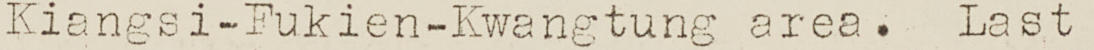Kiangsi-Fukien-Kwangtung area. Last
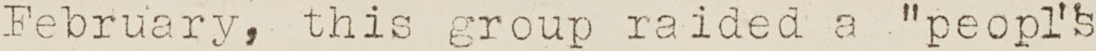February, this group raided a "peopl's
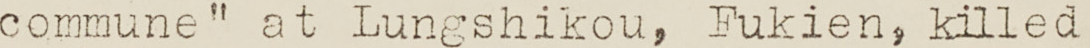commune at Lungshikou, Fukien, killed
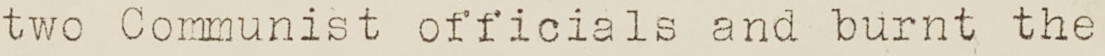two Communist officials and burnt the
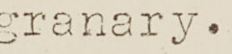granary.
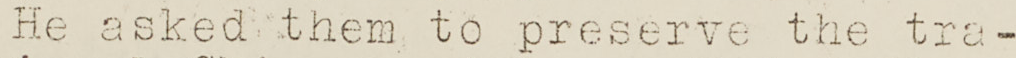He asked them to preserve the tra-
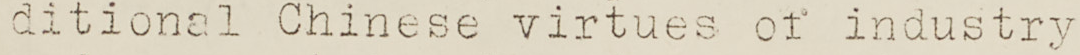ditional Chinese virtues of industry
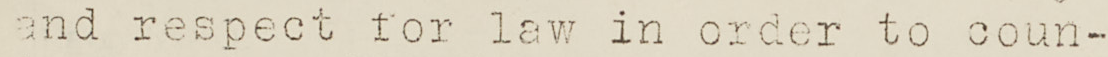and respect for law in order to coun-
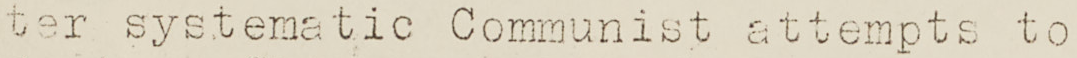ter systematic Communist attempts to
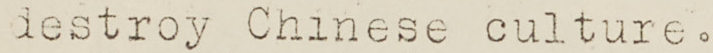destroy Chinese culture.
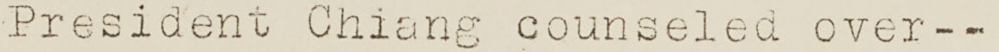President Chiang counseled over--
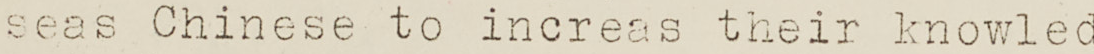seas Chinese to increas their knowled
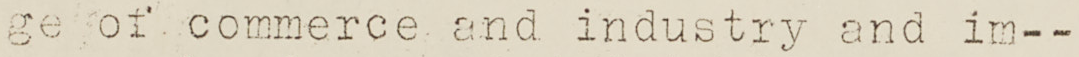ge of commerce and industry and im--
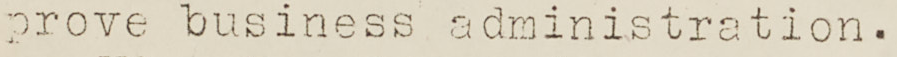prove business administration.
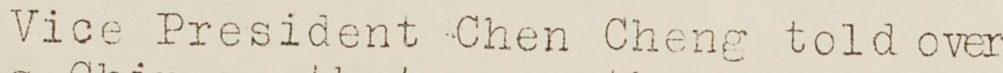Vice President Chen Cheng told over
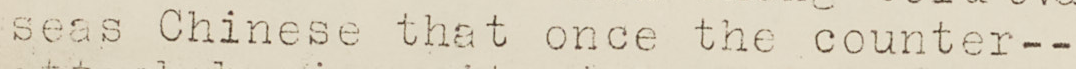seas Chinese that once the counter--
